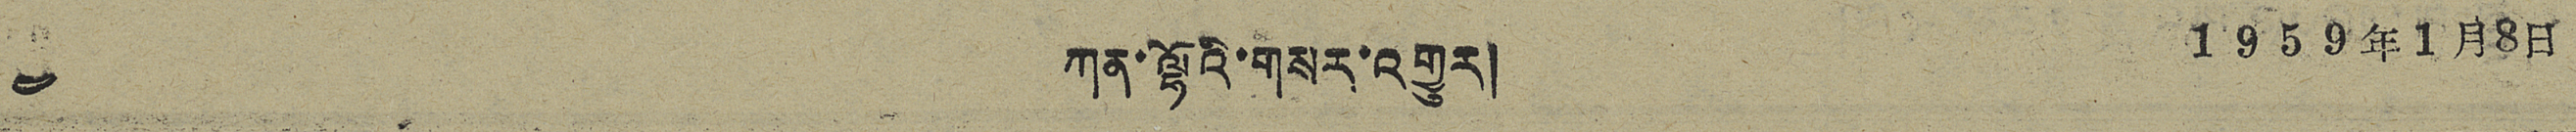༤ ཀན་ལྷོའི་གསར་འགྱུར། 1959年1月8日
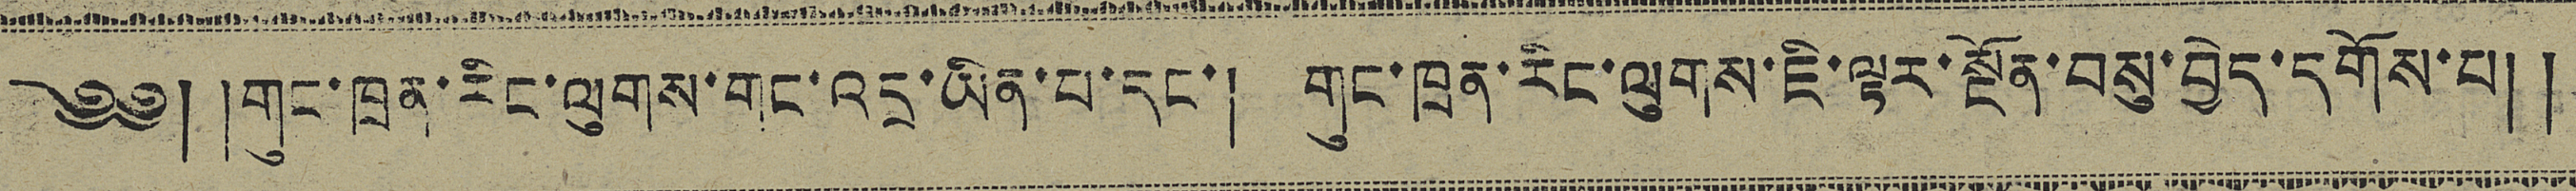༄༅། །གུང་ཁྲན་རིང་ལུགས་གང་འདྲ་ཡིན་པ་དང་། གུང་ཁྲན་རིང་ལུགས་ཇི་ལྟར་སྔོན་བསུ་བྱེད་དགོས་པ། །
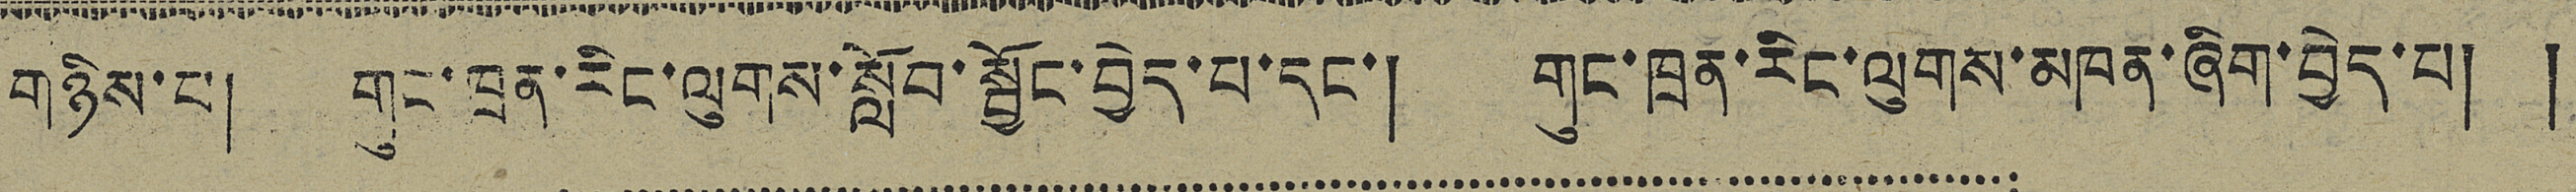གཉིས་པ། གུང་ཁྲན་རིང་ལུགས་སློབ་སྦྱོང་བྱེད་པ་དང་། གུང་ཁྲན་རིང་ལུགས་མཁན་ཞིག་བྱེད་པ། །
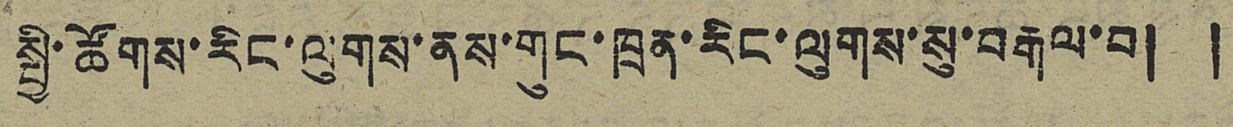སྤྱི་ཚོགས་རིང་ལུགས་ནས་གུང་ཁྲན་རིང་ལུགས་སུ་བརྒལ་བ། །
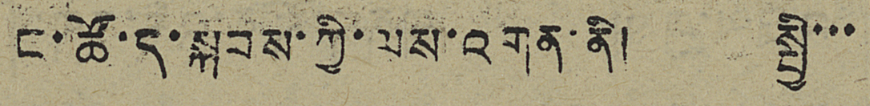ང་ཚོ་ད་སྐབས་ཀྱི་ལས་འགན་ནི། སྤྱི་་་
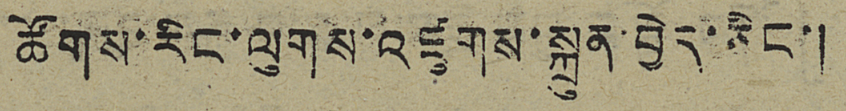ཚོགས་རིང་ལུགས་འཛུགས་སྐྲུན་བྱེད་ཅིང་།
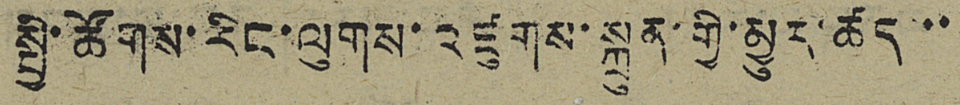སྤྱི་ཚོགས་རིང་ལུགས་འཛུགས་སྐྲུན་གྱི་མྱུར་ཚད་་
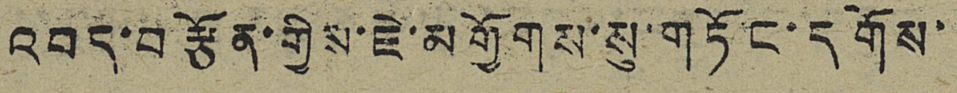འབད་བརྩོན་གྱིས་ཇེ་མགྱོགས་སུ་གཏོང་དགོས་
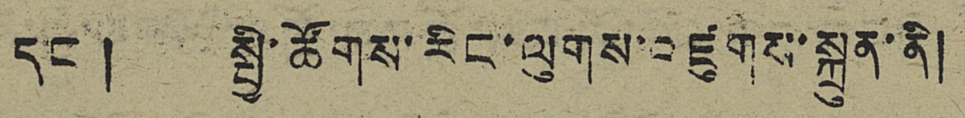དང་། སྤྱི་ཚོགས་རིང་ལུགས་འཛུགས་སྐྲུན་ནི།
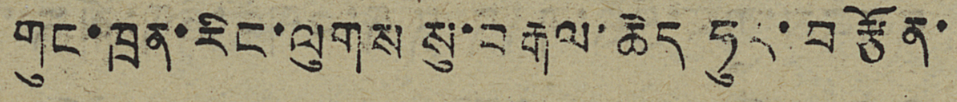གུང་ཁྲན་རིང་ལུགས སུ་བརྒལ་ཆེད་ཧུར་བརྩོན་
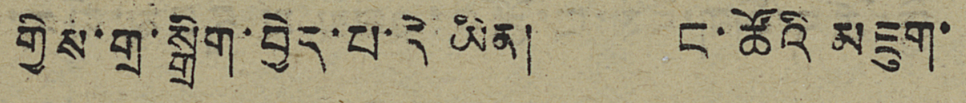གྱིས་གྲ་སྒྲིག་བྱེད་པ་དེ ཡིན། ང་ཚོའི མཇུག་
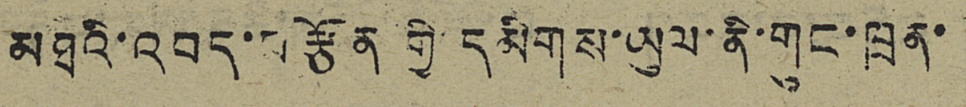མཐའི་འབད་བརྩོན གྱི་དམིགས་ཡུལ་ནི་གུང་ཁྲན་
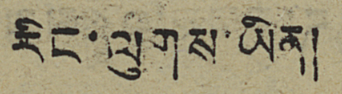རིང་ལུགས་ཡིན།
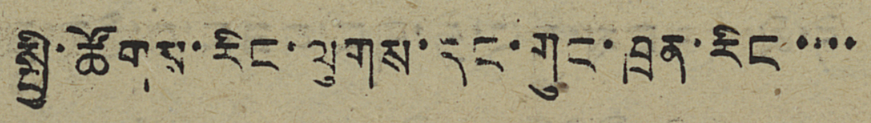སྤྱི་ཚོགས་རིང་ལུགས་དང་གུང་ཁྲན་རིང་་་་
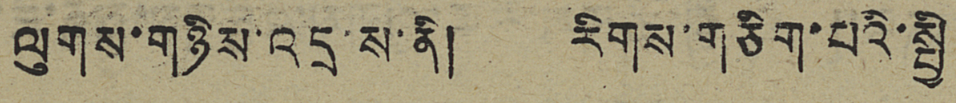ལུགས་གཉིས་འདྲ་ས་ནི། རིགས་གཅིག་པའི་སྤྱི
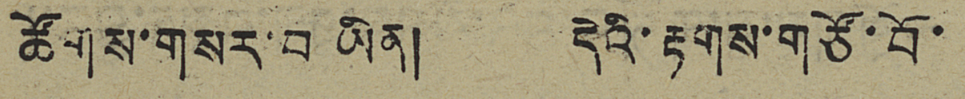ཚོགས་གསར་བ ཡིན། དེའི་རྟགས་གཙོ་བོ་
